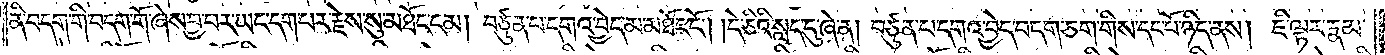ནི་བདག་གི་བདག་གོ་ཞེས་བྱ་བར་ཡང་དག་པར་རྗེས་སུ་མཐོང་ངམ། བཙུན་པ་དགའ་བྱེད་མ་མཐོང་ངོ༌། །དེ་ཅིའི་སླད་དུ་ཞེ་ན། བཙུན་པ་དགའ་བྱེད་བདག་ཅག་གིས་དང་པོ་ཉིད་ནས། ཇི་ལྟར་རྣམ་
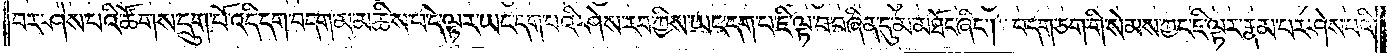པར་ཤེས་པའི་ཚོགས་དྲུག་པོ་འདི་དག་བདག་མ་མཆིས་པ་དེ་ལྟར་ཡང་དག་པའི་ཤེས་རབ་ཀྱིས་ཡང་དག་པ་ཇི་ལྟ་བ་བཞིན་དུ་མ་མཐོང་ཞིང༌། བདག་ཅག་གི་སེམས་ཀྱང་ཇི་ལྟར་རྣམ་པར་ཤེས་པའི་
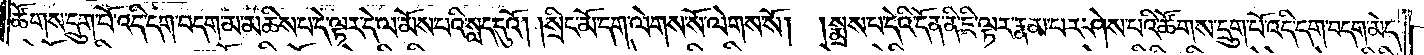ཚོགས་དྲུག་པོ་འདི་དག་བདག་མ་མཆིས་པ་དེ་ལྟར་དེ་ལ་མོས་པའི་སླད་དུའོ། །སྲིང་མོ་དག་ལེགས་སོ་ལེགས་སོ། །སྨྲས་པ་དེའི་དོན་ནི་ཇི་ལྟར་རྣམ་པར་ཤེས་པའི་ཚོགས་དྲུག་པོ་འདི་དག་བདག་མེད་
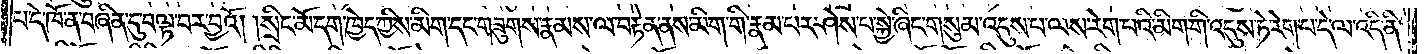བདེ་ཁོ་ན་བཞིན་དུ་བལྟ་བར་བྱའོ། །སྲིང་མོ་དག་ཁྱེད་ཀྱིས་མིག་དང་གཟུགས་རྣམས་ལ་བརྟེན་ནས་མིག་གི་རྣམ་པར་ཤེས་པ་སྐྱེ་ཞིང་གསུམ་འདུས་པ་ལས་རེག་པའི་མིག་གི་འདུས་ཏེ་རེག་པ་དེ་ལ་འདི་ནི་
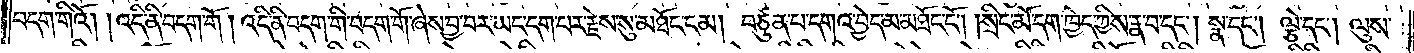བདག་གིའོ། །འདི་ནི་བདག་གོ། འདི་ནི་བདག་གི་བདག་གོ་ཞེས་བྱ་བར་ཡང་དག་པར་རྗེས་སུ་མཐོང་ངམ། བཙུན་པ་དགའ་བྱེད་མ་མཐོང་ངོ༌། །སྲིང་མོ་དག་ཁྱེད་ཀྱིས་རྣ་བ་དང༌། སྣ་དང༌། ལྕེ་དང༌། ལུས་
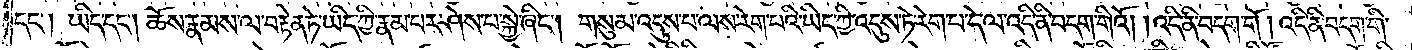དང༌། ཡིད་དང༌། ཆོས་རྣམས་ལ་བརྟེན་ཏེ་ཡིད་ཀྱི་རྣམ་པར་ཤེས་པ་སྐྱེ་ཞིང༌། གསུམ་འདུས་པ་ལས་རེག་པའི་ཡིད་ཀྱི་འདུས་ཏེ་རེག་པ་དེ་ལ་འདི་ནི་བདག་གིའོ། །འདི་ནི་བདག་གོ །འདི་ནི་བདག་གི་
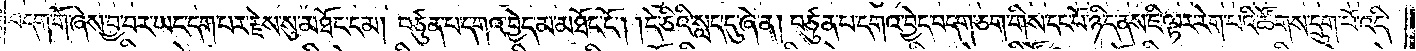བདག་གོ་ཞེས་བྱ་བར་ཡང་དག་པར་རྗེས་སུ་མཐོང་ངམ། བཙུན་པ་དགའ་བྱེད་མ་མཐོང་ངོ༌། །དེ་ཅིའི་སླད་དུ་ཞེ་ན། བཙུན་པ་དགའ་བྱེད་བདག་ཅག་གིས་དང་པོ་ཉིད་ནས་ཇི་ལྟར་རེག་པའི་ཚོགས་དྲུག་པོ་འདི་
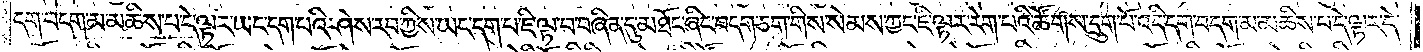དག་བདག་མ་མཆིས་པ་དེ་ལྟར་ཡང་དག་པའི་ཤེས་རབ་ཀྱིས་ཡང་དག་པ་ཇི་ལྟ་བ་བཞིན་དུ་མཐོང་ཞིང་བདག་ཅག་གིས་སེམས་ཀྱང་ཇི་ལྟར་རེག་པའི་ཚོགས་དྲུག་པོ་འདི་དག་བདག་མ་མཆིས་པ་དེ་ལྟར་དེ་
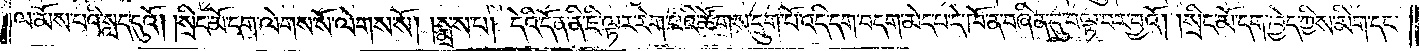ལ་མོས་པའི་སླད་དུའོ། །སྲིང་མོ་དག་ལེགས་སོ་ལེགས་སོ། །སྨྲས་པ། དེའི་དོན་ནི་ཇི་ལྟར་རེག་པའི་ཚོགས་དྲུག་པོ་འདི་དག་བདག་མེད་པ་དེ་ཁོ་ན་བཞིན་དུ་བལྟ་བར་བྱའོ། །སྲིང་མོ་དག་ཁྱེད་ཀྱིས་མིག་དང་
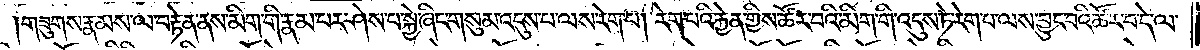གཟུགས་རྣམས་ལ་བརྟེན་ནས་མིག་གི་རྣམ་པར་ཤེས་པ་སྐྱེ་ཞིང་གསུམ་འདུས་པ་ལས་རེག་པ། རེག་པའི་རྐྱེན་གྱིས་ཚོར་བའི་མིག་གི་འདུས་ཏེ་རེག་པ་ལས་བྱུང་བའི་ཚོར་བ་དེ་ལ་
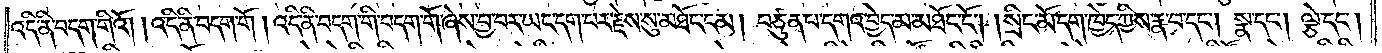འདི་ནི་བདག་གིའོ། །འདི་ནི་བདག་གོ །འདི་ནི་བདག་གི་བདག་གོ་ཞེས་བྱ་བར་ཡང་དག་པར་རྗེས་སུ་མཐོང་ངམ། བཙུན་པ་དགའ་བྱེད་མ་མཐོང་ངོ༌། །སྲིང་མོ་དག་ཁྱེད་ཀྱིས་རྣ་བ་དང༌། སྣ་དང༌། ལྕེ་དང༌།
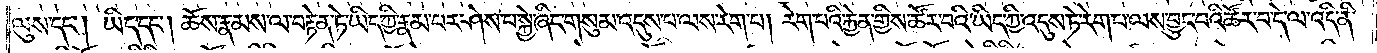ལུས་དང༌། ཡིད་དང༌། ཆོས་རྣམས་ལ་བརྟེན་ཏེ་ཡིད་ཀྱི་རྣམ་པར་ཤེས་པ་སྐྱེ་ཞིང་གསུམ་འདུས་པ་ལས་རེག་པ། རེག་པའི་རྐྱེན་གྱིས་ཚོར་བའི་ཡིད་ཀྱི་འདུས་ཏེ་རེག་པ་ལས་བྱུང་བའི་ཚོར་བ་དེ་ལ་འདི་ནི་
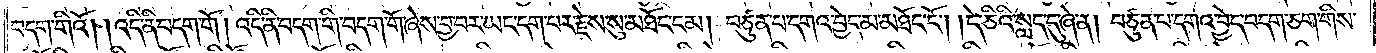བདག་གིའོ། །འདི་ནི་བདག་གོ །འདི་ནི་བདག་གི་བདག་གོ་ཞེས་བྱ་བར་ཡང་དག་པར་རྗེས་སུ་མཐོང་ངམ། བཙུན་པ་དགའ་བྱེད་མ་མཐོང་ངོ༌། །དེ་ཅིའི་སླད་དུ་ཞེ་ན། བཙུན་པ་དགའ་བྱེད་བདག་ཅག་གིས་
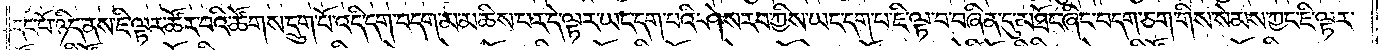དང་པོ་ཉིད་ནས་ཇི་ལྟར་ཚོར་བའི་ཚོགས་དྲུག་པོ་འདི་དག་བདག་མ་མཆིས་པར་དེ་ལྟར་ཡང་དག་པའི་ཤེས་རབ་ཀྱིས་ཡང་དག་པ་ཇི་ལྟ་བ་བཞིན་དུ་མཐོང་ཞིང་བདག་ཅག་གིས་སེམས་ཀྱང་ཇི་ལྟར་
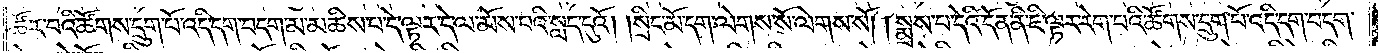ཚོར་བའི་ཚོགས་དྲུག་པོ་འདི་དག་བདག་མ་མཆིས་པ་དེ་ལྟར་དེ་ལ་མོས་པའི་སླད་དུའོ། །སྲིང་མོ་དག་ལེགས་སོ་ལེགས་སོ། །སྨྲས་པ་དེའི་དོན་ནི་ཇི་ལྟར་རེག་པའི་ཚོགས་དྲུག་པོ་འདི་དག་བདག་
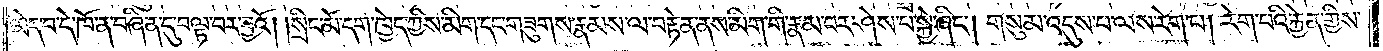མེད་པ་དེ་ཁོ་ན་བཞིན་དུ་བལྟ་བར་བྱའོ། །སྲིང་མོ་དག་ཁྱེད་ཀྱིས་མིག་དང་གཟུགས་རྣམས་ལ་བརྟེན་ནས་མིག་གི་རྣམ་པར་ཤེས་པ་སྐྱེ་ཞིང༌། གསུམ་འདུས་པ་ལས་རེག་པ། རེག་པའི་རྐྱེན་གྱིས་
